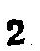2
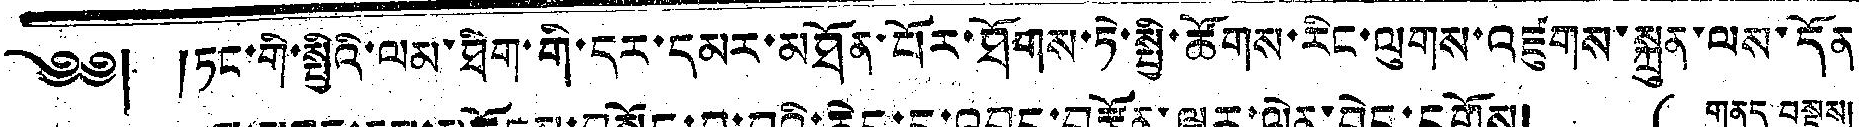༄༅། །ཏང་གི་སྤྱིའི་ལམ་ཐིག་གི་དར་དམར་མཐོན་པོར་ཐོགས་ཏེ་སྤྱི་ཚོགས་རིང་ལུགས་འཛུགས་སྐྲུན་ལས་དོན
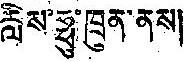རླིས་ཧྥུ་ཁྲུན་ནས།
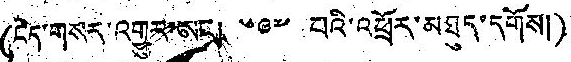(ངེད་གསར་འགྱུར་ཨང། ༦༩༧ པའི་འཕྲོར་མཐུད་དགོས།)
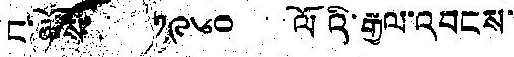ང་ཚོས་ ༡༩༦༠ ལོའི་རྒྱལ་འབངས་
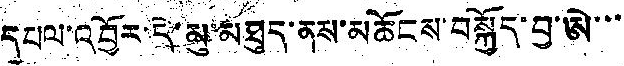དཔལ་འབྱོར་དེ་མུ་མཐུད་ནས་མཆོངས་བསྐྱོད་བྱ་ཨེ་་་
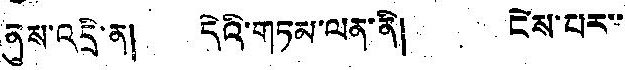ནུས་འདྲི་ན། དེའི་གཏམ་ལན་ནི། ངེས་པར་་
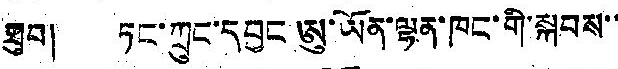ཐུབ། ཏང་ཀྲུང་དབྱང ཨུ་ཡོན་ལྷན་ཁང་གི་སྐབས་་
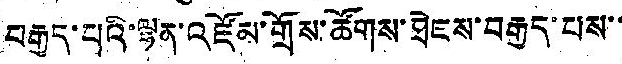བརྒྱད་པའི་ལྷན་འཛོམ་གྲོས་ཚོགས་ཐེངས་བརྒྱད་པས་་
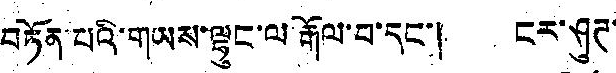བཏོན་པའི་གཡས་ལྷུང་ལ རྒོལ་བ་དང་། ངར་ཤུཊ་
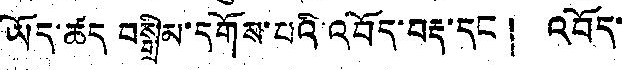ཡོད་ཚད བསྒྲིམ་དགོས་པའི་འབོད་བརྡ་དང ། འབོད་
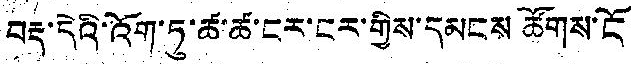བརྡ་དེའི་འོག་ཏུ་ཚ་ཚ་ངར་ངར་གྱིས་དམངས ཚོགས་ངོ
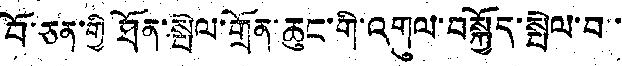བོ་ཅན་གྱི ཐོན་སྤེལ་གྲོན་ཆུང་གི་འགུལ་བསྐྱོད་སྤེ་བ་་
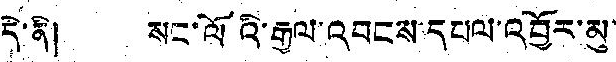དེ་ནི། སང་ལོའི་རྒྱལ་འབངས་དཔལ་འབྱོར་མུ་
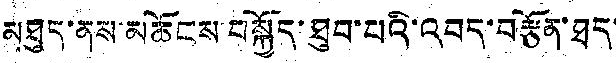མཐུད་ནས་མཆོངས་བསྐྱོད་ཐུབ་པའི་འབད་བརྩོན་ཐད་
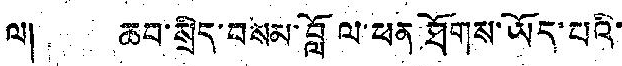ལ། ཆབ་སྲིད་བསམ་བློ ལ་ཕན ཐོགས་ཡོད་པའི་
